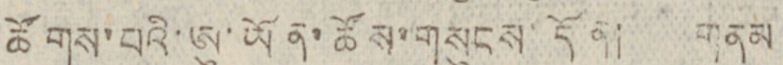ཚོགས་པའི་ཨུ་ཡོན་ཚོས་གསུངས་དོན། གནམ
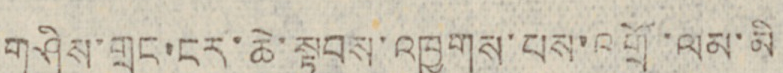གཤིས་གྲང་ངར་ཆེ་སྟབས་འཁྱགས་པས་འགྲོ་ལམ་མི
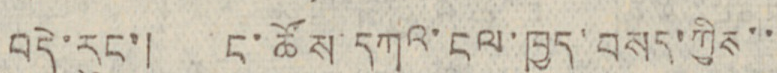བདེ་རུང་། ང་ཚོས་དཀའ་ངལ་ཁྱད་བསད་ཀྱིས་་
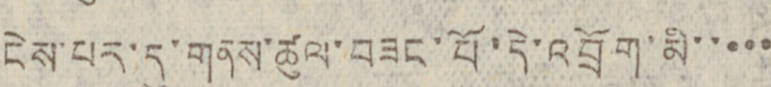ངེས་པར་དུ་གནས་ཚུལ་བཟང་པོ་དེ་འབྲོག་མི་་་་་
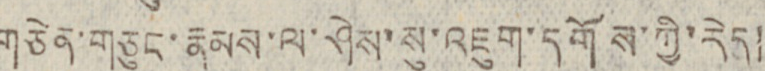གཅེན་གཅུང་རྣམས་ལ་ཤེས་སུ་འཇུག་དགོས་ཀྱི་རེད།
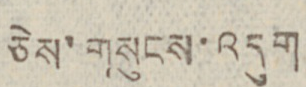ཅེས་གསུངས་འདུག
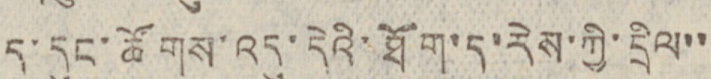ད་དུང་ཚོགས་འདུ་དེའི་ཐོག་ད་རེས་ཀྱི་དྲིལ་་
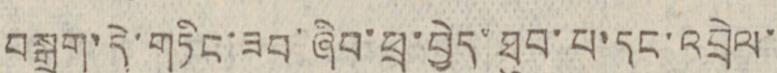བསྒྲག་དེ་གཏིང་ཟབ་ཞིབ་ཕྲ་བྱེད་ཐུབ་པ་དང་འབྲེལ་
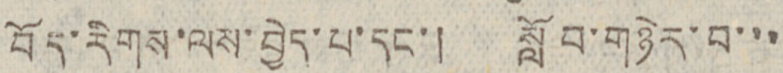བོད་རིགས་ལས་བྱེད་པ་དང་། སློབ་གཉེར་བ་་་
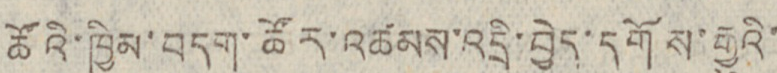ཚོའི་ཁྱིམ་བདག་ཚོར་འཚམས་འདྲི་བྱེད་དགོས་རྒྱུའི་
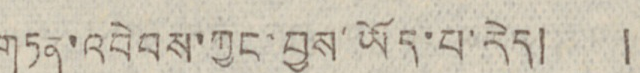གཏན་འབེབས་ཀྱང་བྱས་ཡོད་པ་རེད། །
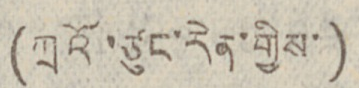(ཀྲའོ་ཙུང་རེན་གྱིས་)
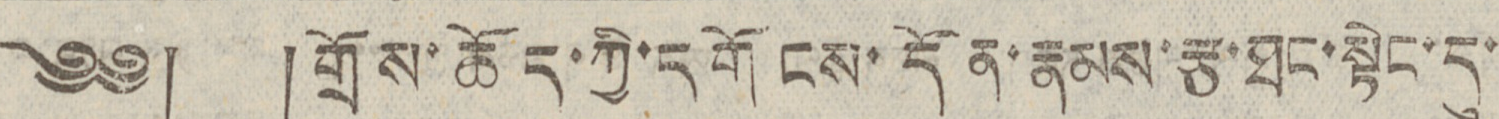༄༅། །གྲོས་ཆོད་ཀྱི་དགོངས་དོན་རྣམས་རྩ་ཐང་སྟེང་དུ་
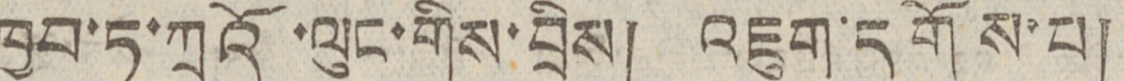ཁྱབ་ཏུ་ཀྲའོ་ལུང་གིས་བྲིས། འཇུག་དགོས་པ།
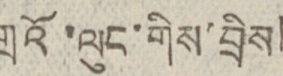གྲའོ་ལུང་གིས་བྲིས།
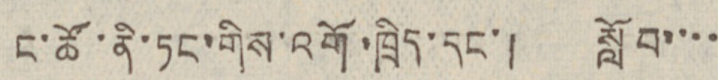ང་ཚོ་ནི་ཏང་གིས་འགོ་ཁྲིད་དང་། སློབ་་་་
